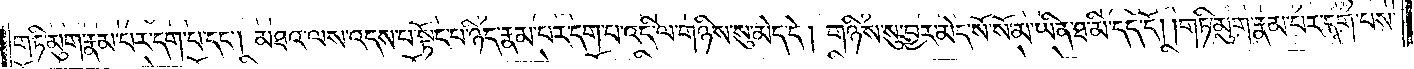གཏི་མུག་རྣམ་པར་དག་པ་དང༌། མཐའ་ལས་འདས་པ་སྟོང་པ་ཉིད་རྣམ་པར་དག་པ་འདི་ལ་གཉིས་སུ་མེད་དེ། གཉིས་སུ་བྱར་མེད་སོ་སོ་མ་ཡིན་ཐ་མི་དད་དོ། །གཏི་མུག་རྣམ་པར་དག་པས་
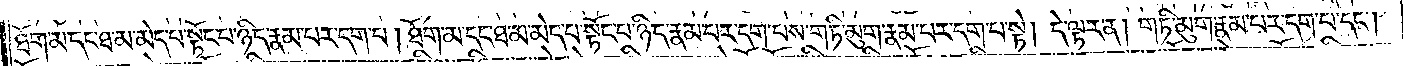ཐོག་མ་དང་ཐ་མ་མེད་པ་སྟོང་པ་ཉིད་རྣམ་པར་དག་པ། ཐོག་མ་དང་ཐ་མ་མེད་པ་སྟོང་པ་ཉིད་རྣམ་པར་དག་པས་གཏི་མུག་རྣམ་པར་དག་པ་སྟེ། དེ་ལྟར་ན། གཏི་མུག་རྣམ་པར་དག་པ་དང༌།
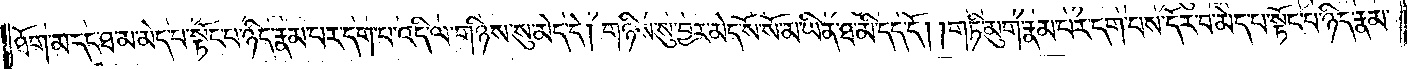ཐོག་མ་དང་ཐ་མ་མེད་པ་སྟོང་པ་ཉིད་རྣམ་པར་དག་པ་འདི་ལ་གཉིས་སུ་མེད་དེ། གཉིས་སུ་བྱར་མེད་སོ་སོ་མ་ཡིན་ཐ་མི་དད་དོ། །གཏི་མུག་རྣམ་པར་དག་པས་དོར་བ་མེད་པ་སྟོང་པ་ཉིད་རྣམ་
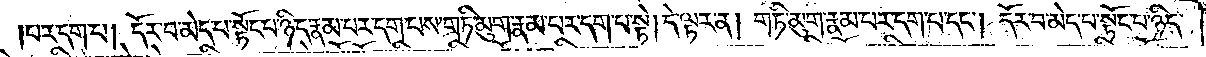པར་དག་པ། དོར་བ་མེད་པ་སྟོང་པ་ཉིད་རྣམ་པར་དག་པས་གཏི་མུག་རྣམ་པར་དག་པ་སྟེ། དེ་ལྟར་ན། གཏི་མུག་རྣམ་པར་དག་པ་དང༌། དོར་བ་མེད་པ་སྟོང་པ་ཉིད་
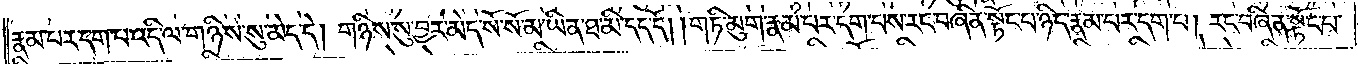རྣམ་པར་དག་པ་འདི་ལ་གཉིས་སུ་མེད་དེ། གཉིས་སུ་བྱར་མེད་སོ་སོ་མ་ཡིན་ཐ་མི་དད་དོ། །གཏི་མུག་རྣམ་པར་དག་པས་རང་བཞིན་སྟོང་པ་ཉིད་རྣམ་པར་དག་པ། རང་བཞིན་སྟོང་པ་
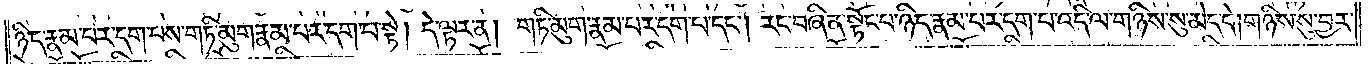ཉིད་རྣམ་པར་དག་པས་གཏི་མུག་རྣམ་པར་དག་པ་སྟེ། དེ་ལྟར་ན། གཏི་མུག་རྣམ་པར་དག་པ་དང༌། རང་བཞིན་སྟོང་པ་ཉིད་རྣམ་པར་དག་པ་འདི་ལ་གཉིས་སུ་མེད་དེ། གཉིས་སུ་བྱར་
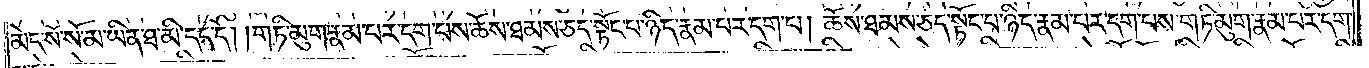མེད་སོ་སོ་མ་ཡིན་ཐ་མི་དད་དོ། །གཏི་མུག་རྣམ་པར་དག་པས་ཆོས་ཐམས་ཅད་སྟོང་པ་ཉིད་རྣམ་པར་དག་པ། ཆོས་ཐམས་ཅད་སྟོང་པ་ཉིད་རྣམ་པར་དག་པས་གཏི་མུག་རྣམ་པར་དག་
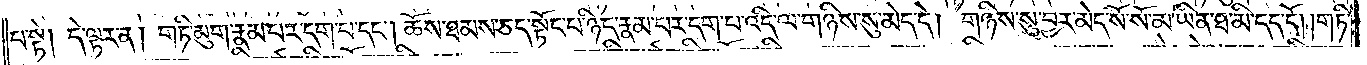པ་སྟེ། དེ་ལྟར་ན། གཏི་མུག་རྣམ་པར་དག་པ་དང༌། ཆོས་ཐམས་ཅད་སྟོང་པ་ཉིད་རྣམ་པར་དག་པ་འདི་ལ་གཉིས་སུ་མེད་དེ། གཉིས་སུ་བྱར་མེད་སོ་སོ་མ་ཡིན་ཐ་མི་དད་དོ། །གཏི་
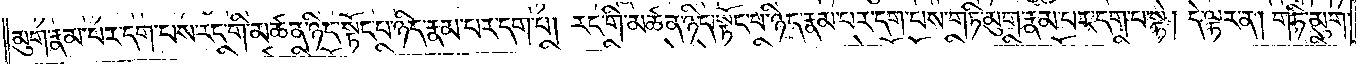མུག་རྣམ་པར་དག་པས་རང་གི་མཚན་ཉིད་སྟོང་པ་ཉིད་རྣམ་པར་དག་པ། རང་གི་མཚན་ཉིད་སྟོང་པ་ཉིད་རྣམ་པར་དག་པས་གཏི་མུག་རྣམ་པར་དག་པ་སྟེ། དེ་ལྟར་ན། གཏི་མུག་
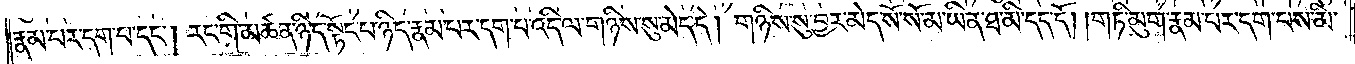རྣམ་པར་དག་པ་དང༌། རང་གི་མཚན་ཉིད་སྟོང་པ་ཉིད་རྣམ་པར་དག་པ་འདི་ལ་གཉིས་སུ་མེད་དེ། གཉིས་སུ་བྱར་མེད་སོ་སོ་མ་ཡིན་ཐ་མི་དད་དོ། །གཏི་མུག་རྣམ་པར་དག་པས་མི་
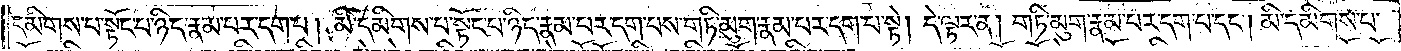དམིགས་པ་སྟོང་པ་ཉིད་རྣམ་པར་དག་པ། མི་དམིགས་པ་སྟོང་པ་ཉིད་རྣམ་པར་དག་པས་གཏི་མུག་རྣམ་པར་དག་པ་སྟེ། དེ་ལྟར་ན། གཏི་མུག་རྣམ་པར་དག་པ་དང༌། མི་དམིགས་པ་
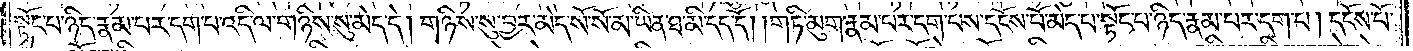སྟོང་པ་ཉིད་རྣམ་པར་དག་པ་འདི་ལ་གཉིས་སུ་མེད་དེ། གཉིས་སུ་བྱར་མེད་སོ་སོ་མ་ཡིན་ཐ་མི་དད་དོ། །གཏི་མུག་རྣམ་པར་དག་པས་དངོས་པ་མེད་པ་སྟོང་པ་ཉིད་རྣམ་པར་དག་པ། དངོས་པོ་
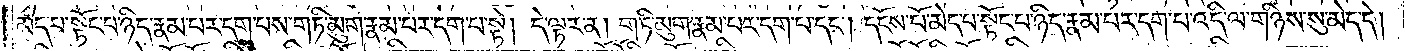མེད་པ་སྟོང་པ་ཉིད་རྣམ་པར་དག་པས་གཏི་མུག་རྣམ་པར་དག་པ་སྟེ། དེ་ལྟར་ན། གཏི་མུག་རྣམ་པར་དག་པ་དང༌། དངོས་པོ་མེད་པ་སྟོང་པ་ཉིད་རྣམ་པར་དག་པ་འདི་ལ་གཉིས་སུ་མེད་དེ།
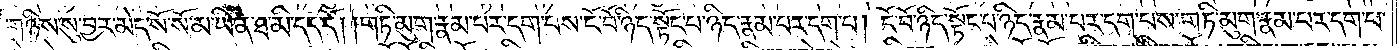གཉིས་སུ་བྱར་མེད་སོ་སོ་མ་ཡིན་ཐ་མི་དད་དོ། །གཏི་མུག་རྣམ་པར་དག་པས་ངོ་བོ་ཉིད་སྟོང་པ་ཉིད་རྣམ་པར་དག་པ། ངོ་བོ་ཉིད་སྟོང་པ་ཉིད་རྣམ་པར་དག་པས་གཏི་མུག་རྣམ་པར་དག་པ་
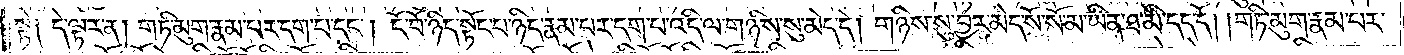སྟེ༑ དེ་ལྟར་ན། གཏི་མུག་རྣམ་པར་དག་པ་དང༌། ངོ་བོ་ཉིད་སྟོང་པ་ཉིད་རྣམ་པར་དག་པ་འདི་ལ་གཉིས་སུ་མེད་དེ། གཉིས་སུ་བྱར་མེད་སོ་སོ་མ་ཡིན་ཐ་མི་དད་དོ། །གཏི་མུག་རྣམ་པར་
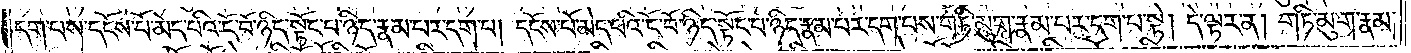དག་པས་དངོས་པོ་མེད་པའི་ངོ་བོ་ཉིད་སྟོང་པ་ཉིད་རྣམ་པར་དག་པ། དངོས་པོ་མེད་པའི་ངོ་བོ་ཉིད་སྟོང་པ་ཉིད་རྣམ་པར་དག་པས་གཏི་མུག་རྣམ་པར་དག་པ་སྟེ། དེ་ལྟར་ན། གཏི་མུག་རྣམ་
